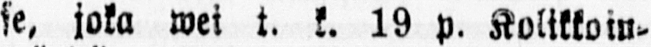se, joka wei t. k. 19 p. Kolikkoin-
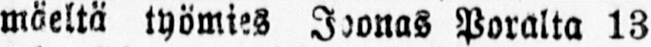mäeltä työmies Joonas Poralta 13
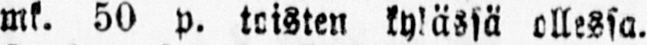mk. 50 p. toisten kylässä ollessa.
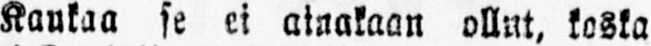Kaukaa se ei ainakaan ollut, koska
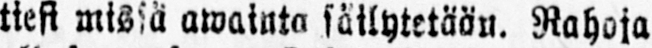tiesi missä awainta sätlytetään. Rahoja
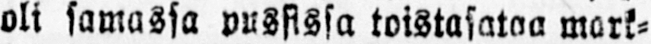oli samassa pussissa toistasataa mark-
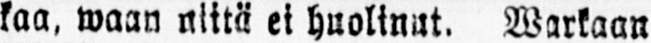kaa, waan niitä ei huolinut. Warkaan
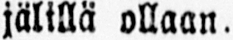jälillä ollaan.
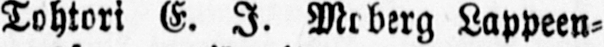Tohtori E. I. Moberg Lappeen-
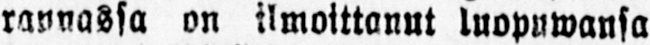rannassa on ilmoittanut luopuwansa
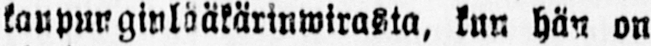kaupunginlääkärinwirasta, kun hän on
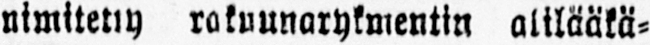nimitetty rakuunarykmentin alilääkä-
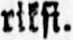riksi.
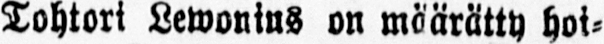Tohtori Lewonius on määrätty hoi-
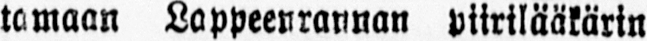tamaan Lappeenrannan piirilääkärin
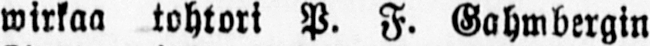Wirkaa tohtori P. F. Gahmbergin
